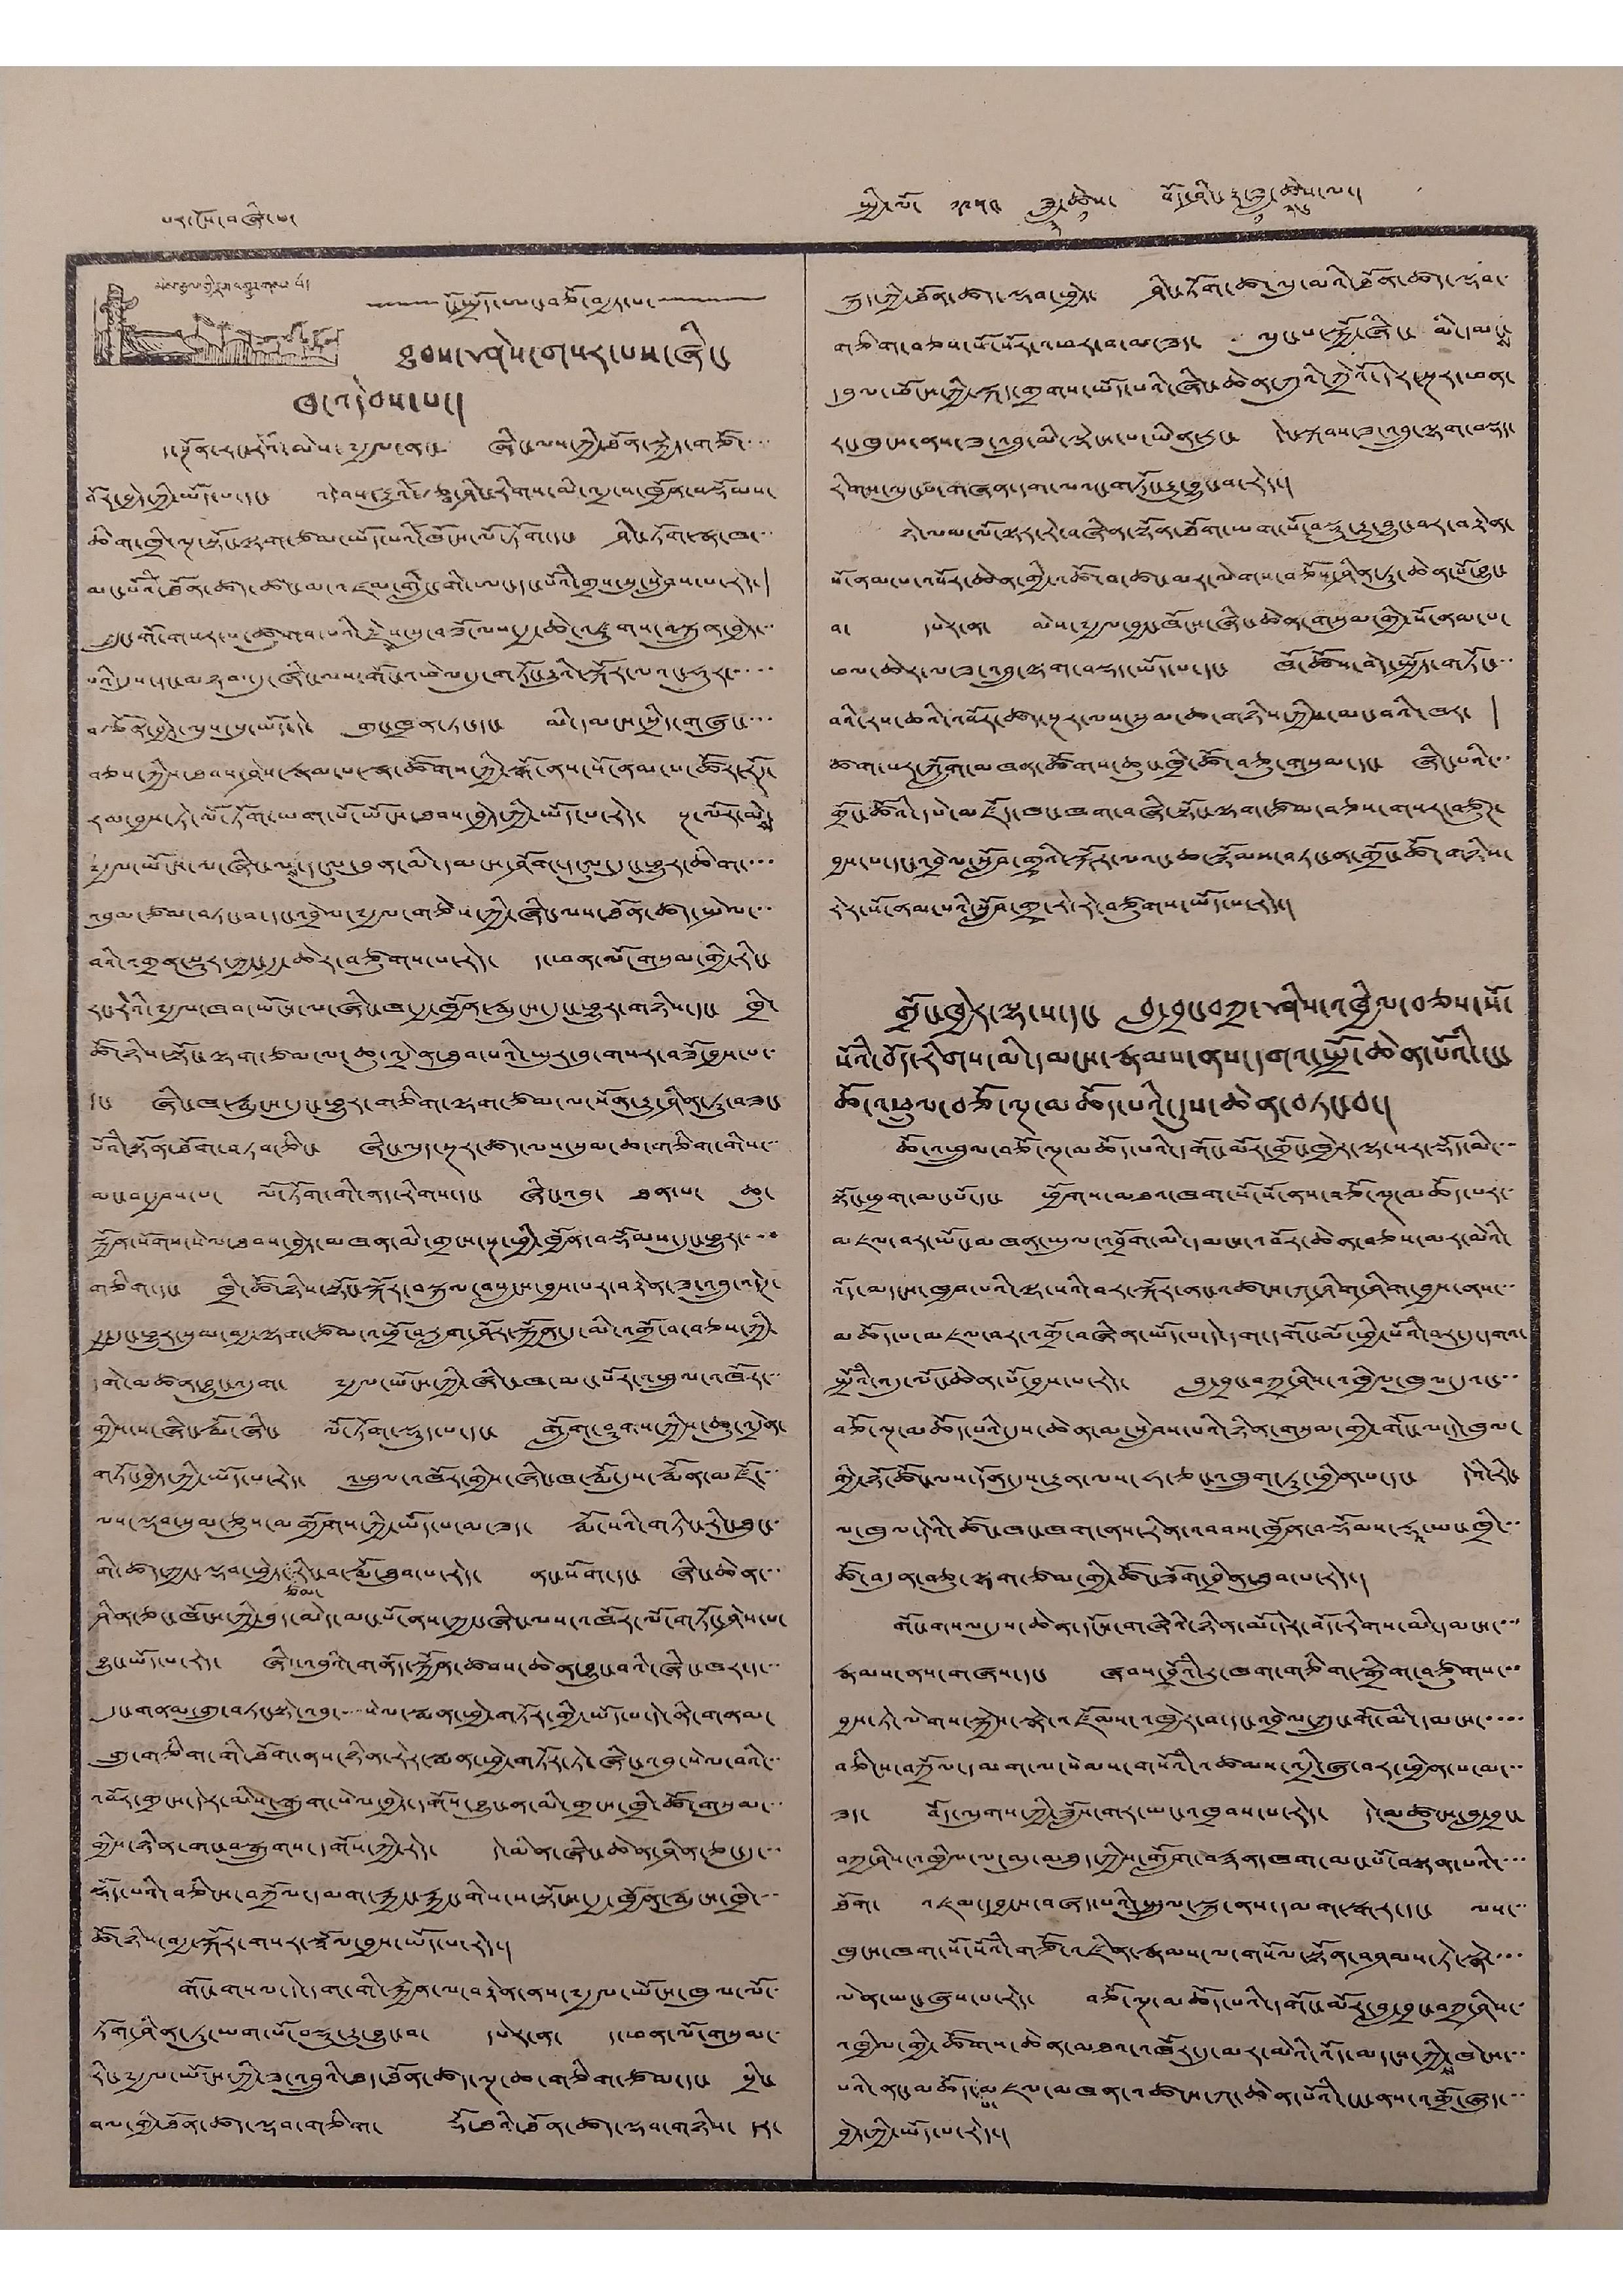པར་ངོས་བཞི་པ་ སྤྱི་ལོ་ ༡༩༥༤ ཟླ་
༣
ཚེས་
༡
བོད་ཤིང་རྟ་ཟླ་
༡
ཚེས་
༢༦
ལ་།
མེས་རྒྱལ་གྱིས་གསར་འགྱུར་གསལ་པོ་
ངོ་སྤྲོད་ཨང་བཅོ་བརྒྱད་པ་
ཐབས་ཤེས་གསར་པས་ཞིང་
ཁང་འདེབས་པ་།
ད་སྔོན་རང་རེའི་མེས་༸རྒྱལ་ནང་ ཞིང་ལས་ཀྱི་ཐོན་སྐྱེད་གཙོ་་་་
བོར་བྱེད་ཀྱི་ཡོད་པ་དང་ འདེབས་རྒྱུའི་རྩྭ་ཤིང་རིགས་མི་འདྲ་བ་ཁྱོན་བསྡོམས་
ཆིག་ཁྲི་ལྔ་སྟོང་ལྷག་ཙམ་ཡོད་པའི་ཁོངས་ལོ་ཏོག་དང་ ཤིང་ཏོག་སྣ་ཁ་
མང་པོའི་ཐོནན་ཚད་ཚང་མ་འཛམ་གླིང་གི་ཨང་དང་པོའི་གྲས་སུ་སླེབས་པ་རེད་།
ཀྲུང་གོ་གསར་པ་ཚུགས་པའི་རྗེས་སུ་བཟོ་ལས་རྒྱ་ཆེ་འཛུགས་བསྐྲུན་བྱེད་
པའི་དུས་དང་མཉམམ་དུ་ཞིང་ལས་གོང་འཕེལ་དུ་གཏོང་རྒྱུའི་སྐོར་ལའང་ཧུར་་་་་
བརྩོན་བྱེད་ལུས་སུ་ཡོད་དེ་ གུང་ཁྲན་ཏང་དང་ མི་དམངས་སྲིད་གཞུང་་་་
བཅས་ཀྱིས་ཐབས་ཤེས་རྣམ་པ་སྣ་ཚོགས་ཀྱི་སྒོ་ནས་སོ་ནམ་པ་ཚོར་རོཊ་
རམ་བྱས་ཏེ་ལོ་ཏོག་ཡག་པོ་ཡོངས་ཐབས་བྱེད་ཀྱི་ཡོད་པ་རེད་ སྔ་ལོར་མེས་
༸རྒྱལ་ཡོངས་ལ་ཞིང་ལས་དངུལ་བུན་མི་དམངས་ཤོག་དངུལ་དུང་ཕྱུར་ཆིག་
འབུམ་ཙམ་བཏང་བ་དང་འབྲེལ་༸རྒྱལ་གཅེས་ཀྱི་ཞིང་ལས་ཐོན་ཚད་སྤེལ་་་
བའི་འགྲན་སྡུར་ཀྱང་རྒྱ་ཆེར་བཙུགས་པ་རེད་ ད་ཕན་ལོ་གསུམ་གྱི་རིང་
རང་རེའི་༸རྒྱལ་ཁབ་ཡོངས་ལ་ཞིང་ཁ་རྒྱ་ཁྱོན་རྨུངས་དུང་ཕྱུར་གཉིས་དང་ ཁྲི་
ཚོ་ཉིས་སྟོང་ལྷག་ཙམ་ལ་ཆུ་འདྲེན་ཐུབ་པའི་ཡུར་བུ་གསར་བཟོ་བྱས་པ་
དང་ ཞིང་ཁ་རྨུངས་དུང་ཕྱུར་གཅིག་ལྷག་ཙམ་ལ་སོན་རྒྱུ་ཤིན་ཏུ་བཟང་
པོའི་སྟོན་ཐོག་བཏབ་ཅིང་ ཞིང་ལུད་སྔར་ཚད་ལས་སུམ་ཆ་གཅིག་གིས་་་
མང་བ་རྒྱབས་པ་ ལོ་ཏོག་གི་ནད་རིགས་དང་ ཞིང་འབུ་ ཐན་པ་ ཆུ་
སྐྱོན་སོགས་སེལ་ཐབས་བྱེད་མཁན་མི་གྲངས་སྔ་ཕྱི་ཁྱོན་བསྡོམས་དུང་ཕྱུར་་་་
གཅིག་དང་ ཁྲི་ཚོ་ཉིས་སྟོང་སྐོར་བསྐུལ་བསླངས་བྱས་པར་བརྟེན་ཟ་འབྲུ་འདེཊ་
རྒྱ་དུང་ཕྱུར་སུམ་བརྒྱ་ལྷག་ཙམ་འཕྲོ་བརླག་ཤོར་སྐྱོན་དུ་མི་འགྲོ་བ་བཅས་ཀྱི་
དགེ་མཚན་བྱུང་འདུག་ ༸རྒྱལ་ཡོངས་ཀྱི་ཞིང་ཁ་མང་པོར་འཕྲུལ་འཁོར་
གྱིས་ས་ཞིང་རྨོ་ཞིང་ ལོ་ཏོག་སྡུད་པ་དང་ གློག་ཤུགས་ཀྱིས་ཆུ་འདྲེན་
གཏོང་བྱེད་ཀྱི་ཡོད་པ་རེད་ འཕྲུལ་འཁོར་གྱིས་ཞིང་ཁ་རྨོ་དུས་རྨོན་མཛོ་་་
ལས་ལྡབ་སུམ་ཅུས་མགྱོགས་ཀྱི་ཡོད་པ་མ་ཟད་ རྨོ་སའི་གཏིང་རིང་ཐུང་་
གི་ཚད་ཀྱང་ལྡབ་ཕྱེད་
ཙམ་
རིང་བ་རྨོ་ཐུབ་པ་རེད་ ནང་སོག་དང་ ཞིང་ཆེན་་་
ཤིན་ཅང་ཁོངས་ཀྱི་ཁོངས་ཀྱི་བུད་མེད་མང་པོ་ནས་ཀྱང་ཞིང་ལས་འཁོར་ལོ་གཏོང་ཤེས་པ་
བྱུང་ཡོད་པ་རེད་ ཞིང་འབུའི་གནོད་སྐྱོན་ཚབས་ཆེན་བྱུང་བའི་ཞིང་ཁར་ད་་་
དུང་གནམ་གྲུ་བཏང་སྟེ་འབུ་་་་་སེལ་སྨན་ཕྱེ་གཏོར་གྱི་ཡོད་པ་དེ་ནི་གནམ་
གྲུ་གཅིག་གི་ཐོག་ནས་ཉིན་རེར་སྨན་ཕྱེ་གཏོར་ཏེ་ཞིང་འབུ་སེལ་བའི་་་
འབོར་གྲངས་དེར་མིས་སྒྲུག་སེལ་བྱེད་དགོས་བྱུང་ན་མི་གྲངས་ཁྲི་ཚོ་གསུམ་་་
གྱིས་ཉིན་གང་བསྒྲུགས་དགོས་ཀྱི་རེད་ དེ་མིན་ཞིང་ཆེན་ཤིན་ཅང་དུ་
སྡོད་པའི་བཅིངས་བཀྲོལ་དམག་རྐྱང་རྐྱང་གིས་ས་སྟོངས་རྒྱ་ཁྱོན་རྨུངས་ཁྲི་་་
ཚོ་ཉིས་བརྒྱ་སྐོར་གསར་སྒྲོལ་བྱས་ཡོད་པ་རེད་།
གོང་གསལ་དེ་དག་གི་རྐྱེན་ལ་བརྟེན་ནས་༸རྒྱལ་ཡོངས་ཁུལ་ལོ་་
ཏོག་ཤིན་ཏུ་ཡག་པོ་བསྡུ་རྒྱུ་བྱུང་བ་ དཔེར་ན་ ད་ཕན་ལོ་གསུམ་་
རིང་༸རྒྱལ་ཡོངས་ཀྱི་ཟ་འབྲུའི་ཐད་ཐོན་ཚད་ལྔ་ཆ་གཅིག་ཙམ་དང་ སྲིང་
བལ་གྱི་ཐོན་ཚད་ལྡབ་གཅིག་ རྡོ་ཐའི་ཐོན་ཚད་ལྡབ་གཉིས་ དར་
སྐུད་ཀྱི་ཐོན་ཚད་ལྡབ་ཕྱེད་ ཤིང་ཏོག་ཚ་ལུ་མའི་ཐོན་ཚད་ལྡབ་་
གཅིག་བཅས་སོ་སོར་འཕར་བ་མ་ཟད་ ལུང་པ་སྐྱོ་ཞིང་ མི་དམངས་
དབུལ་ཕོངས་ཀྱི་སྐད་གྲགས་ཡོད་པའི་ཞིང་ཆེན་ཀུའི་ཀྲེའོ་དེར་སྔར་ཕན་
རང་ཁུངས་ནས་ཟ་འབྲུ་མི་ལྡེངས་པ་ཡིན་རུང་ དེང་སྐབས་ཟ་འབྲུ་ལྷག་བསྡད་
རིགས་ལུང་པ་གཞན་དག་ལའང་གཏོང་རྒྱུ་བྱུང་བ་རེད་།
ཉེ་ལམ་ལོ་ལྟར་རེ་བཞིན་སྟོན་ཐོག་ཡག་པོ་བསྡུ་རྒྱུ་བྱུང་བར་བརྟེན་
སོ་ནམ་པ་འབོར་ཆེན་གྱི་འཚོ་བ་ཚང་མར་ལེགས་བཅོས་ཤིན་ཏུ་ཆེན་པོ་བྱུང་
བ་ དཔེར་ན་ མེས་༸རྒྱལ་བྱང་ཁོངས་ཞིང་ཆེན་གསུམ་གྱི་སོ་ནམ་པ་
ཕལ་ཆེར་ལ་ཟ་འབྲུ་ལྷག་བསྡད་ཡོད་པ་དང་ ཁོ་ཚོས་བེད་སྤྱོད་གཏོང་་་
བའི་རས་ཆའི་འབོར་ཚད་སྔར་ལས་སུམ་ཆ་གཉིས་ཀྱིས་མང་བའི་ཁར་ །
ཚག་པར་ཀློག་མཁན་ཚོགས་ཆུང་ཁྲི་ཚོ་བཅུ་གསུམ་དང་ ཞིང་པའི་་
གྲོང་ཚོའི་དཔེ་མཛོད་ཁང་ཁག་བཞི་སྟོང་ལྷག་ཙམ་བཅས་གསར་བཙུཊ་
བྱས་པ་དང་འབྲེལ་སློབ་གྲྭའི་སྐོར་ལའང་ཆ་སྙོམས་བཏང་ན་གྲོང་ཚོ་གཉིས་
རེར་སོ་ནམ་པའི་སློབ་གྲྭ་རེ་རེ་བཙུགས་ཡོད་པ་རེད་།
གྲོང་ཁྱེར་ལྷ་ས་དང་ བླ་བྲང་བཀྲ་ཤིས་འཁྱིལ་བཅས་སོ་
སོའི་བོད་རིགས་མི་དམངས་རྣམས་ནས་དགའ་སྤྲོ་ཆེན་པོའི་ངང་
ཚོ་འཕྲུལ་བཅོ་ལྔ་མཆོད་པའི་དུས་ཆེན་བཏང་བ་།
ཆོ་འཕྲུལ་བཅོ་ལྔ་མཆོད་པའི་དགོང་མོར་གྲོང་ལྷ་སར་སྡོད་མི་་་
སྟོང་ཕྲག་མང་པོ་དང་ ཕྱོགས་མཐའ་ཁག་སོ་སོ་ནས་བཅོ་ལྔ་མཆོད་པར་་
མཇལ་བར་ཡོང་མཁན་ཡུལ་འབྲོག་མི་དམངས་འབོར་ཆེན་བཅས་མར་མེའི་
འོད་མདངས་ཁྱབ་པའི་ལྷ་སའི་བར་སྐོར་ནང་འཚངས་ཀ་ཤིག་ཤིག་བྱས་ནས་་་
མཆོད་པ་མཇལ་བར་འགྲོ་བཞིན་ཡོད་པ་དེ་དག་དགོང་མོ་ཕྱི་པོའི་བར་དུ་དགའ་
སྤྲོའི་འདུ་ལོང་ཆེན་པོ་བྱས་པ་རེད་ བླ་བྲང་བཀྲ་ཤིས་འཁྱིལ་ཁུལ་དུའང་་་
བཅོ་ལྔ་མཆོད་པའི་དུས་ཆེན་མ་སླེབས་པའི་ཉིན་གསུམ་གྱི་གོང་ལ་དེ་ཁུལ་
གྱི་ཉོ་ཚོང་ལས་དོན་དུས་རྒྱུན་ལས་ཧ་ཅང་འཁྲུག་ཏུ་ཕྱིན་པ་དང་ དེའི་རིང་
ལ་ཁུལ་དེའི་ཚོང་ཁང་ཁག་ནས་རིན་འབབས་ཁྱོན་བསྡོམས་རྡཱ་ཡང་ཁྲི་་་
ཚོ་བདུན་བཅུ་ལྷག་ཙམ་གྱི་ཚོང་ཟོག་བྲིན་ཐུབ་པ་རེད་།
གོང་གསལ་དུས་ཆེན་དངོས་གཞིའི་ཉིན་མོ་དེར་བོད་རིགས་མི་དམངས་་་་
རྣམས་ནས་གཞས་དང་ ཞབས་བྲོའི་རུ་ཁག་གཅིག་སྒྲིག་བཙུགས་་་
བྱས་ཏེ་ལེགས་སྐྱེས་སྣེ་འཛོམས་འཁྱེར་བ་དང་འབྲེལ་ཀྲུང་གོ་མི་དམངས་་་་་
བཅིངས་བཀྲོལ་དམག་ལ་སེམས་གསོའི་འཚམས་འདྲི་ཞུ་བར་ཕྱིན་པ་མ་་་
ཟད་ བོད་ལུགས་ཀྱི་ཟློས་གར་ཡང་འཁྲབས་པ་རེད་ དེ་མཚུངས་བླ་བྲང་
བཀྲ་ཤིས་འཁྱིལ་ལ་མུ་མཐུད་ཀྱིས་གློག་བརྙན་ཁག་མང་པོ་བསྟན་པའི་་་་
ཐོག་ འཇམ་དབྱངས་བཞད་པའི་སྤྲུལ་སྐུ་ནས་དམག་སྒར་དང་ ལས་་་
ཁུངས་ཁག་སོ་སོའི་གཙོ་འཛིན་རྣམས་ལ་གསོལ་སྟོན་བཤམས་ཏེ་སྣེ་་་་
ལེན་ཡང་ཞུས་པ་རེད་ བཅོ་ལྔ་མཆོད་པའི་དགོང་མོར་བླ་བྲང་བཀྲ་ཤིས་་
འཁྱིལ་གྱི་ཚོགས་ཆེན་མཐའ་འཁོར་དུ་མར་མེའི་འོད་མདངས་ཀྱིས་ཁེངས་་་
པའི་ནང་མཆོད་
པ་
མཇལ་མཁན་འཚངས་ཀ་ཆེན་པོའི་ངང་ནས་འགྲོ་ཞུད་་་
བྱེད་ཀྱི་ཡོད་པ་རེད་།
